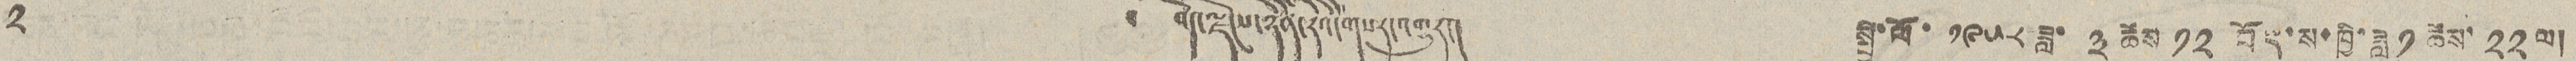༢ ༄ བོད་ལྗོངས་ཉིན་རེའི་གསར་འགྱུར། སྤྱི་ལོ་ ༡༩༥༨ ཟླ་ ༣ ཚེས་ ༡༢ བོད་ས་ཁྱི་ཟླ ༡ ཚེས་ ༢༢ ལ།
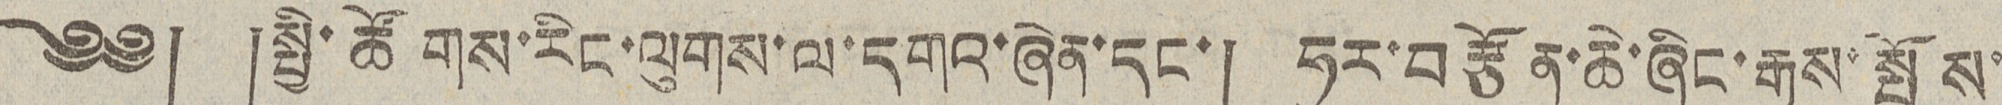༄༅། །སྤྱི་ཚོགས་རིང་ལུགས་ལ་དགའ་ཞེན་དང་། ཧུར་བརྩོན་ཆེ་ཞིང་རྒྱས་སྤྲོས་
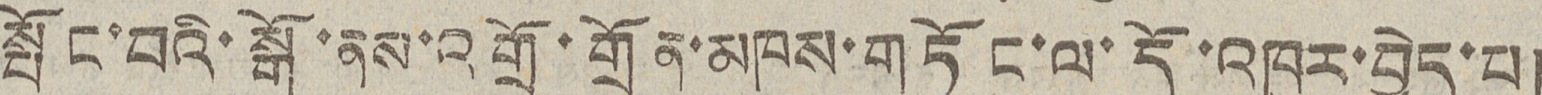སྤོང་བའི་སྒོ་ནས་འགྲོ་གྲོན་མཁས་གཏོང་ལ་དོ་འཁུར་བྱེད་པ།
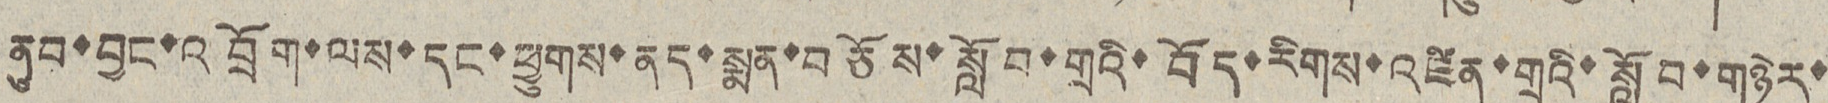ནུབ་བྱང་འབྲོག་ལས་དང་ཕྱུགས་ནད་སྨན་བཅོས་སློབ་གྲའི་བོད་རིགས་འཛིན་གྲའི་སློབ་གཉེར་
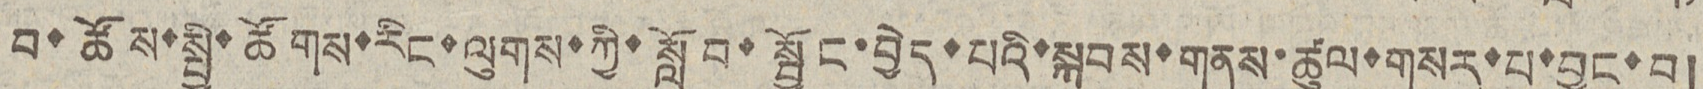བ་ཚོས་སྤྱི་ཚོགས་རིང་ལུགས་ཀྱི་སློབ་སྦྱོང་བྱེད་པའི་སྐཔས་གནས་ཚུལ་གསར་པ་བྱུང་བ།
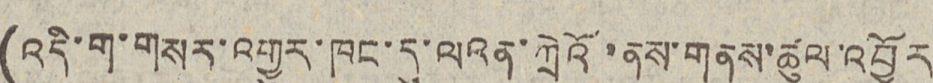(འདི་ག་གསར་འགྱུར་ཁང་དུ་ལའན་ཀྲེའོ་ནས་གནས་ཚུལ་འབྱོར
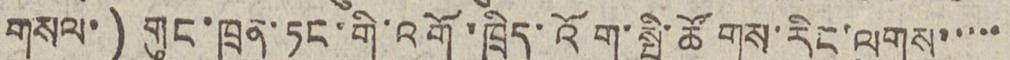གསལ་) གུང་ཁྲན་ཏང་གི་འགོ་ཁྲིད་འོག་སྤྱི་ཚོགས་རིང་ལུགས་་་་་
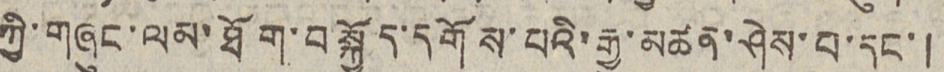ཀྱི་གཞུང་ལམ་ཐོག་བསྐྱོད་དགོས་པའི་རྒྱུ་མཚན་ཤེས་པ་དང་།
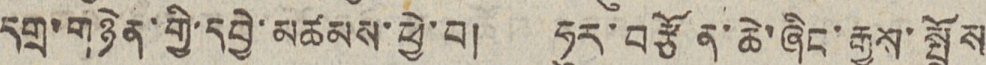དགྲ་གཉེན་གྱི་དབྱེ་མཚམས་ཕྱེ་བ། ཧུར་བརྩོན་ཆེ་ཞིང་རྒྱས་སྤྲོས་
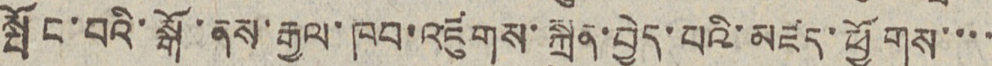སྤོང་བའི་སྒོ་ནས་རྒྱལ་ཁབ་འཛུགས་སྐྲུན་བྱེད་པའི་མཛད་ཕྱོགས་་་་
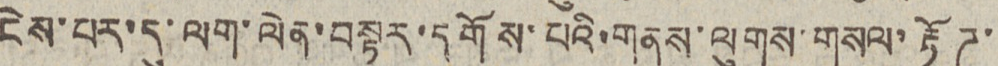ངེས་པར་དུ་ལག་ལེན་བསྟར་དགོས་པའི་གནས་ལུགས་གསལ་རྟོཊ་
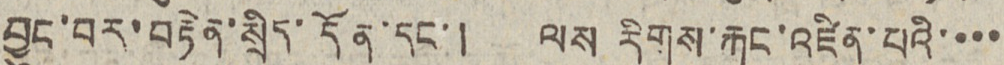བྱུང་བར་བརྟེན་སྲིད་དོན་དང་། ལས རིགས་རྐང་འཛིན་པའི་་་་
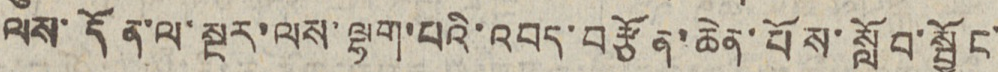ལས་དོན་ལ་སྔར་ལས་ལྷག་པའི་འབད་བརྩོན་ཆེན་པོས་སློབ་སྦྱོང་
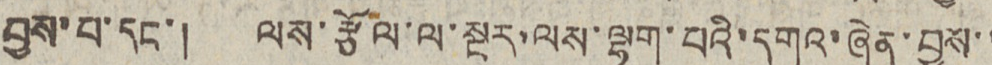བྱས་པ་དང་། ལས་རྩོལ་ལ་སྔར་ལས་ལྷག་པའི་དགའ་ཞེན་བྱས་་
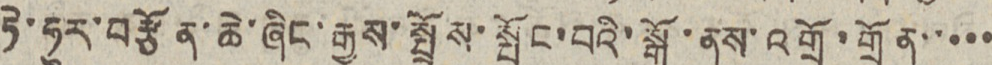ཏེ་ཧུར་བརྩོན་ཆེ་ཞིང་རྒྱས་སྤྲོས་སྤོང་བའི་སྒོ་ནས་འགྲོ་གྲོན་་་་་
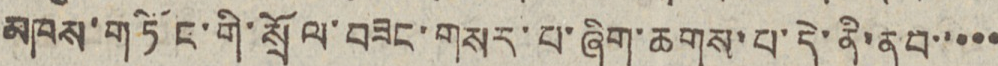མཁས་གཏོང་གི་སྲོལ་བཟང་གསར་པ་ཞིག་ཆགས་པ་དེ་ནི་ནུབ་་་་་
